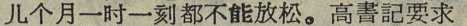几个月一时一刻都不能放松。高書記要求
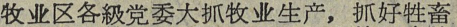牧业区各級党委大抓牧业生产，抓好牲畜
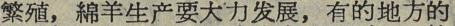繁殖，綿羊生产要大力发展，有的地方的
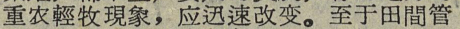重农輕牧現象，应迅速改变。至于田間管
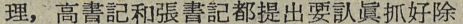理，高書記和張書記都提出要认眞抓好除
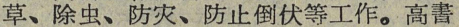草、除虫、防灾、防止倒伏等工作。高書
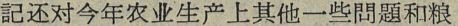記还对今年农业生产上其他一些問題和粮
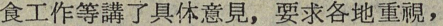食工作等講了具体意見，要求各地重視，
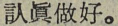认眞做好。
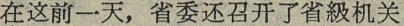在这前一天，省委还召开了省級机关
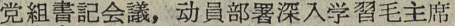党組書記会議，动員部署深入学習毛主席
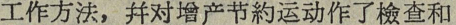工作方法，并对增产节約运动作了檢查和
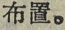布置。
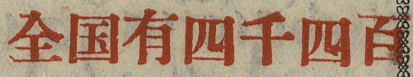全国有四千四百
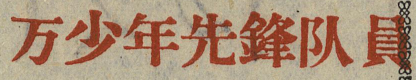万少年先鋒队員
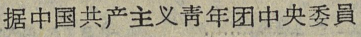据中国共产主义靑年团中央委員
